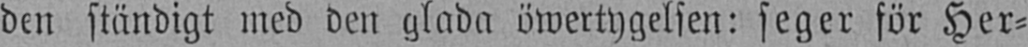den ständigt med den glada öwertygelsen: seger för Her-
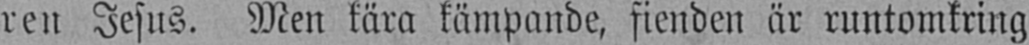ren Jesus. Men kära kämpande, fienden är runtomkring
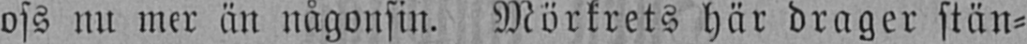oss nu mer än någonsin. Mörkrets här drager stän-
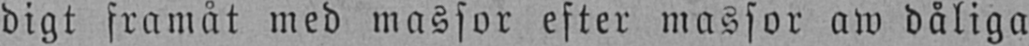digt framåt med massor efter massor aw dåliga
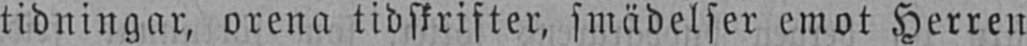tidningar, orena tidskrifter, smädelser emot Herren
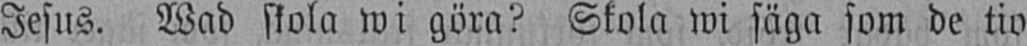Jesus. Wad skola wi göra? Skola wi säga som de tio
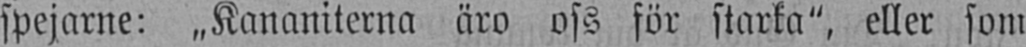spejarne: „Kananiterna äro oss för starka", eller som
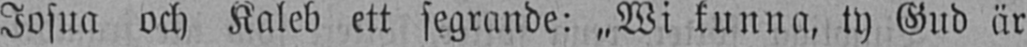Josua och Kaleb ett segrande: „Wi kunna, ty Gud är
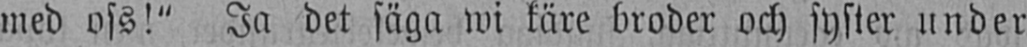med oss!" Ja det säga wi käre broder och syster under
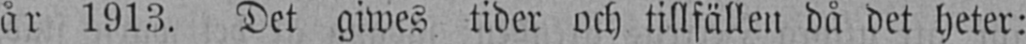år 1913. Det giwes tider och tillfällen då det heter:
